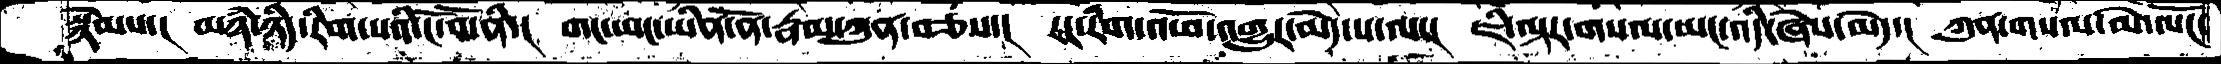སྙེམས་།  མཉཾ་ཉིད་རིག་པའི་ངོ་བོ་ནི་།  གང་ཡང་ཡིན་ནོ་རྣམ་ཀུན་བཅས་།  རང་རིག་འཕོ་འགྱུར་མེད་པ་ལ་།  ཇི་ལྟར་གསལ་ཡང་འདི་ཞེས་མེད་།  ཀུན་གསལ་མེ་ལོང་
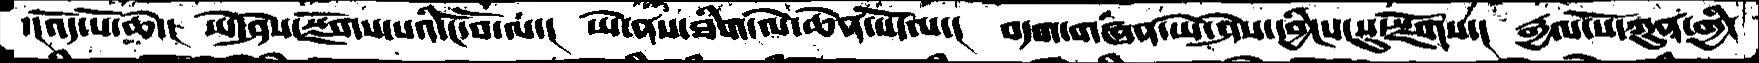་།འོད་པོ་ཆེ་།  ཡེ་ཤེས་སྫོགས་པའི་ངོ་བོ་ལ་།  ཡེ་ནས་ཐིག་ལེ་ཆེན་པོ་ལ་།  བདག་གཞན་ཡེ་ཤེས་དབྱིངས་སུ་སྫོགས་།  རྒྱལ་པོ་ཀུན་གྱི་
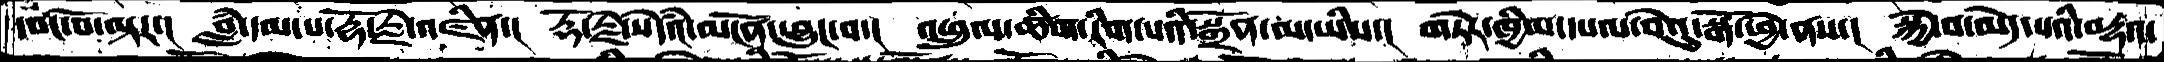དབང་པོ་ལྟར་།  བླཾ་དམ་པ་རྡོ་རྗེ་འཛིན་།  རྡོ་རྗེ་སེདཾའ་མངོན་ཕྱུང་བ་།  འཕྲུལ་ཚིག་རིག་པའི་སྒྲོན་མ་ཡིས་།  གཏེར་ཁྱིམ་དཔལ་བེའུ་སྒོ་ཕྱེ་ནས་།  སྐྱེ་བ་མེད་པའི་བརྡའ་
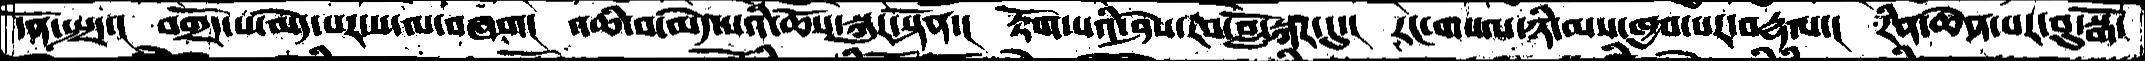དོན་སྤྲད་།  བགྲོད་པ་མེད་པར་ས་ལ་བཞག།  འཆི་བ་མེད་པའི་ཆོས་སྐུར་སྟོན་།  རྟོག་པའི་ཤེས་རབ་བློ་སྐར་དུ་།  རང་གསལ་ཉི་མས་ཁྱབ་པར་བརྡལ་།  རིན་ཆེན་པར་བུ་སྒོ་
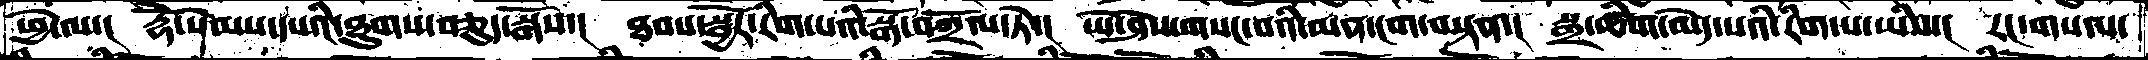ཕྱེ་ལ་།  རྡོེ་སེམས་དཔའི་ཐུགས་བཅུད་སྒོས་།  ཐབས་སྦྱོར་རིག་པའི་སྒོ་བགྲོལ་ཏེ་།  ཡེ་ཤེས་གསང་བའི་མན་ངག་བསྟན་།  སྒྲ་ཚིག་མེད་པའི་རིག་པ་ཡིས་།  རང་གསལ་
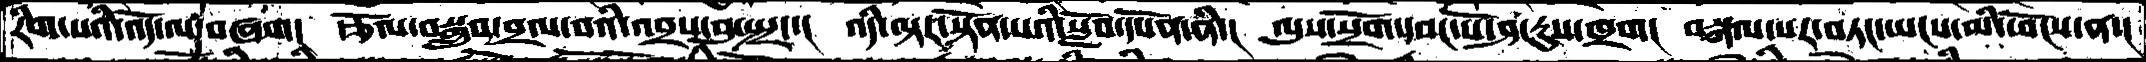རིག་པའི་འོད་ལ་བཞག།  རྩོལ་བསྒྲུབ་བྲལ་བའི་འབྲས་བུ་སྤྲད་།  འདི་ལྟར་སྟོན་པའི་སློབ་དཔོན་ནི་།  ལུས་སྲོག་དབང་པོ་ཤ་རུས་ཁྲག།  བསྐལ་པར་བཏང་ཡངས་མི་ཕོངས་ན་།
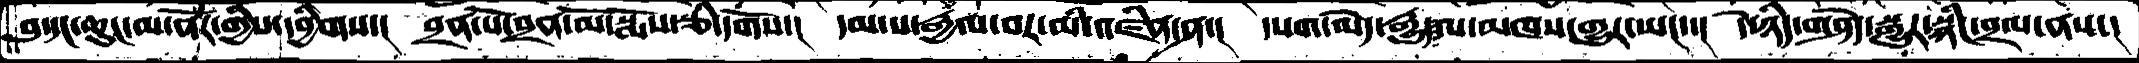བུ་དང་ཆུང་མ་ནོར་གྱིས་དབྱིགས་།  བྲན་པོ་བྲན་མོ་སྨོས་ཅི་དགོས་།  དམ་པ་རྒྱལ་བར་མི་འཛིན་ན་།  དཔག་མེད་རྒྱུད་ལ་མཁས་གྱུར་ཡང་་།  དེ་ཉིད་གཤེད་སྒྱུར་སྙིང་བྲལ་ནས་།
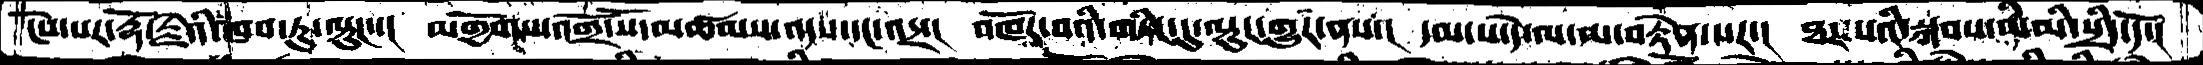ངེས་པར་རྡོ་རྗེའི་ཁབ་ཏུ་ལྟུང་་།  མགྱོགས་འགྲོ་སོ་མཚམས་འདས་དང་འདྲ་།  འཁོར་བའི་གཏིང་དུ་ལྟུང་གྱུར་ནས་།  དམ་པ་དེ་ལ་མ་བརྟེན་པར་།  ཐར་པའི་སྐབས་ནི་མི་སྲིད་དོ་།
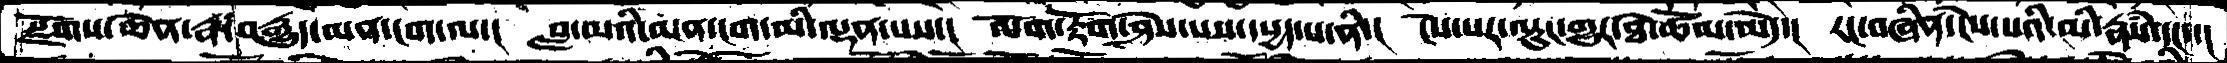སྫོགས་ཆེན་རྣ་བརྒྱུད་མན་ངག་ལ་།  བླ་མའི་མན་ངག་མི་ལྡན་པས་།  ལོག་རྟོག་ཤེས་པས་དཔྱད་པ་ནི་།  ངེས་པར་ལྟུང་འགྱུར་ཐེ་ཚོམ་མེད་།  རང་བཞིན་ངེས་པའི་མི་རྣཾས་དང་་།
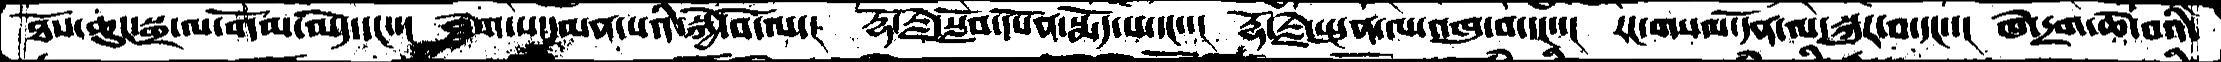ཐོས་ཆུང་སྒྲ་ལ་གོམ་མེད་དང་་།  ཐེག་པ་དམན་པའི་སྐྱེ་བོ་ལ་།  རྡོ་རྗེ་སློབ་དཔོན་སྨོད་པ་དང་་།  རྡོ་རྗེ་སྤུན་ལ་འཁུ་བ་དང་་།  རང་གསལ་དོན་ལ་སྐུར་བ་དང་་།  ཁེ་དྲག་ཆེ་བའི་
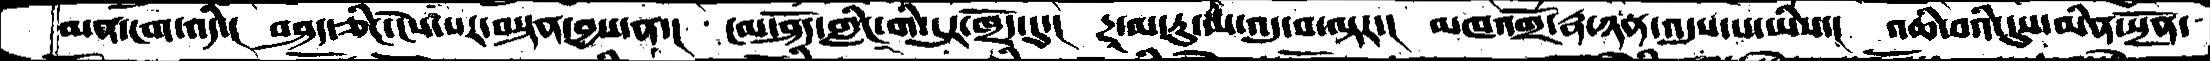མན་ངག་འདི་།  བཤད་ཅིང་ངེས་པར་བསྟན་བྱས་ན་།  ངམ་ཤོད་གླིང་གི་དུར་ཁྲོད་དུ་།  ཌཱ་མ་རུ་ལ་འདུ་བ་ལྟར་།  མཁའགྲོ་རྣ་ཉན་འདུས་པ་ཡིས་།  འཆི་བའི་དུས་མིན་སྔོན་
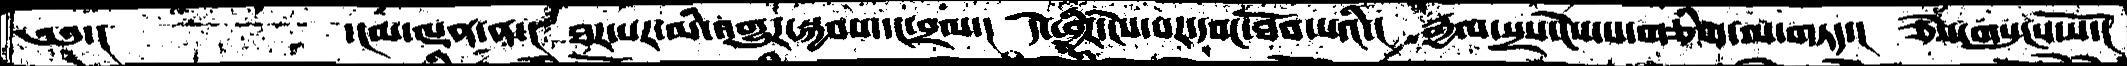༄༅་།       ་།མ་ལྡན་ན་།  ཐར་པར་མི་འགྱུར་སྐྱབས་དང་བྲལ་།  དེ་ཕྱིར་ངེས་པར་དབང་ཐོབ་པའི་།  རྒྱལ་སྲས་ངེས་པ་གཅིག་ལ་གཏད་།  ཅེས་གསུངས་སོ་།
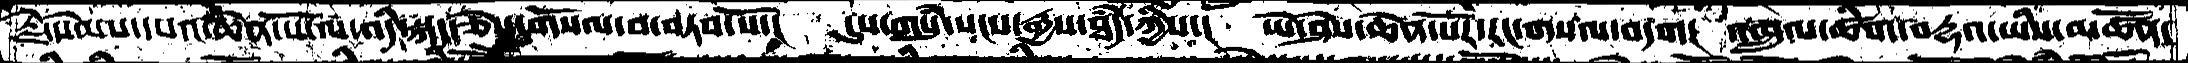རྗེ་སེམས་དཔའ་ཆེན་པོ་ལ་འདི་སྐད་ཅེས་གསོལ་བ་བཏབ་སོ་།  དུས་གསུཾ་སངས་རྒྱས་ཐཾད་ཀྱིས་།  ཡེ་ཤེས་ཆེན་པོར་རང་གསལ་བདག།  འཁྲུལ་ཚིག་བརྡའ་ཡིས་མཚོན་
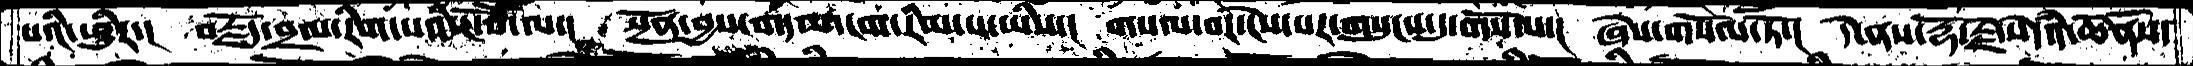པའི་ཕྱིར་།  བརྗོད་བྲལ་རིག་པའི་ངོ་བོ་ལ་།  སྔོན་བྱས་གདམ་ངག་རིག་པ་ཡིས་།  གསལ་བར་ངེས་པར་གསུངས་དུ་གསོལ་།  ཞེས་གསོལ་ཏོ་།  དེ་ནས་རྡོ་རྗེ་སེདཾའ་ཆེནཔོ་
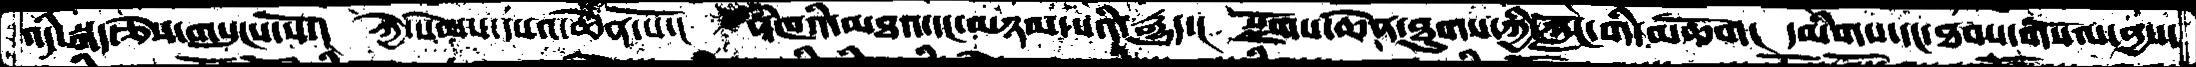འདི་སྐད་ཅེས་གསུངས་སོ་།  ཀྱེ་སེམས་དཔའ་ཆེན་པོ་།  ནཾཁའི་མཐའ་དང་མཉམ་པའི་རྒྱུད་།  སྫོགས་ཆེན་ཐུགས་ཀྱི་ཀློང་གི་མཆོག།  དམིགས་དང་ཐབས་གསོལ་ནྱས་
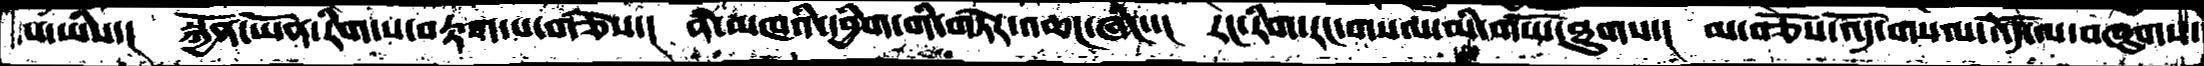པ་ཡིས་།  སྐྱོན་ཡོན་རིག་པ་བརྟག་པ་གཅེས་།  ནཾ་མཁའི་དབྱིག་གི་གཏེར་འཆང་ཞིང་་།  རང་རིག་རང་གསལ་མི་གཡོ་ཐུགས་།  མ་བཅོས་འོད་གསལ་འོད་ལ་བཞུགས་
